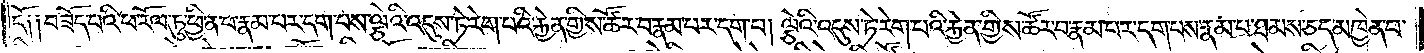དོ༑ ༑བཟོད་པའི་ཕ་རོལ་ཏུ་ཕྱིན་པ་རྣམ་པར་དག་པས་ལྕེའི་འདུས་ཏེ་རེག་པའི་རྐྱེན་གྱིས་ཚོར་བ་རྣམ་པར་དག་པ། ལྕེའི་འདུས་ཏེ་རེག་པའི་རྐྱེན་གྱིས་ཚོར་བ་རྣམ་པར་དག་པས་རྣམ་པ་ཐམས་ཅད་མཁྱེན་པ་
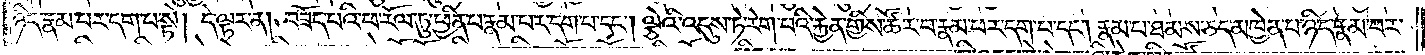ཉིད་རྣམ་པར་དག་པ་སྟེ། དེ་ལྟར་ན། བཟོད་པའི་ཕ་རོལ་ཏུ་ཕྱིན་པ་རྣམ་པར་དག་པ་དང༌། ལྕེའི་འདུས་ཏེ་རེག་པའི་རྐྱེན་གྱིས་ཚོར་བ་རྣམ་པར་དག་པ་དང༌། རྣམ་པ་ཐམས་ཅད་མཁྱེན་པ་ཉིད་རྣམ་པར་
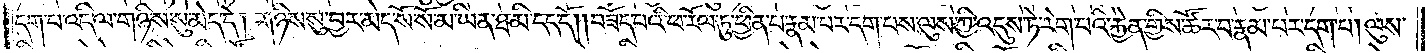དག་པ་འདི་ལ་གཉིས་སུ་མེད་དེ། གཉིས་སུ་བྱར་མེད་སོ་སོ་མ་ཡིན་ཐ་མི་དད་དོ། །བཟོད་པའི་ཕ་རོལ་ཏུ་ཕྱིན་པ་རྣམ་པར་དག་པས་ལུས་ཀྱི་འདུས་ཏེ་རེག་པའི་རྐྱེན་གྱིས་ཚོར་བ་རྣམ་པར་དག་པ། ལུས་
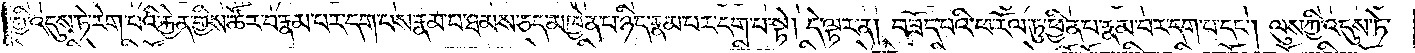ཀྱི་འདུས་ཏེ་རེག་པའི་རྐྱེན་གྱིས་ཚོར་བ་རྣམ་པར་དག་པས་རྣམ་པ་ཐམས་ཅད་མཁྱེན་པ་ཉིད་རྣམ་པར་དག་པ་སྟེ། དེ་ལྟར་ན། བཟོད་པའི་ཕ་རོལ་ཏུ་ཕྱིན་པ་རྣམ་པར་དག་པ་དང༌། ལུས་ཀྱི་འདུས་ཏེ་
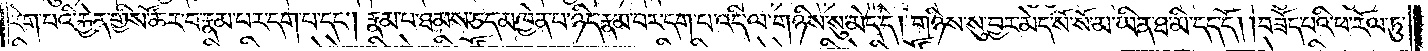རེག་པའི་རྐྱེན་གྱིས་ཚོར་བ་རྣམ་པར་དག་པ་དང༌། རྣམ་པ་ཐམས་ཅད་མཁྱེན་པ་ཉིད་རྣམ་པར་དག་པ་འདི་ལ་གཉིས་སུ་མེད་དེ། གཉིས་སུ་བྱར་མེད་སོ་སོ་མ་ཡིན་ཐ་མི་དད་དོ། །བཟོད་པའི་ཕ་རོལ་ཏུ་
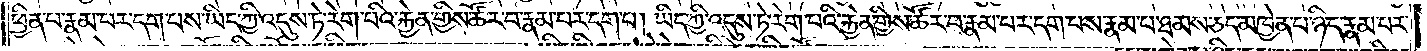ཕྱིན་པ་རྣམ་པར་དག་པས་ཡིད་ཀྱི་འདུས་ཏེ་རེག་པའི་རྐྱེན་གྱིས་ཚོར་བ་རྣམ་པར་དག་པ། ཡིད་ཀྱི་འདུས་ཏེ་རེག་པའི་རྐྱེན་གྱིས་ཚོར་བ་རྣམ་པར་དག་པས་རྣམ་པ་ཐམས་ཅད་མཁྱེན་པ་ཉིད་རྣམ་པར་
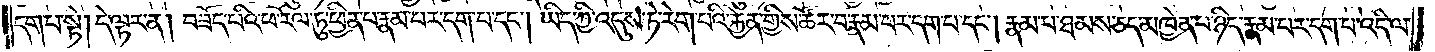དག་པ་སྟེ། དེ་ལྟར་ན། བཟོད་པའི་ཕ་རོལ་ཏུ་ཕྱིན་པ་རྣམ་པར་དག་པ་དང༌། ཡིད་ཀྱི་འདུས་ཏེ་རེག་པའི་རྐྱེན་གྱིས་ཚོར་བ་རྣམ་པར་དག་པ་དང༌། རྣམ་པ་ཐམས་ཅད་མཁྱེན་པ་ཉིད་རྣམ་པར་དག་པ་འདི་ལ་
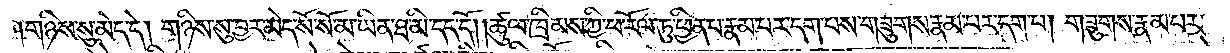གཉིས་སུ་མེད་དེ། གཉིས་སུ་བྱར་མེད་སོ་སོ་མ་ཡིན་ཐ་མི་དད་དོ། །ཚུལ་ཁྲིམས་ཀྱི་ཕ་རོལ་ཏུ་ཕྱིན་པ་རྣམ་པར་དག་པས་གཟུགས་རྣམ་པར་དག་པ། གཟུགས་རྣམ་པར་
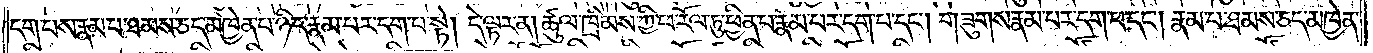དག་པས་རྣམ་པ་ཐམས་ཅད་མཁྱེན་པ་ཉིད་རྣམ་པར་དག་པ་སྟེ། དེ་ལྟར་ན། ཚུལ་ཁྲིམས་ཀྱི་ཕ་རོལ་ཏུ་ཕྱིན་པ་རྣམ་པར་དག་པ་དང༌། གཟུགས་རྣམ་པར་དག་པ་དང༌། རྣམ་པ་ཐམས་ཅད་མཁྱེན་
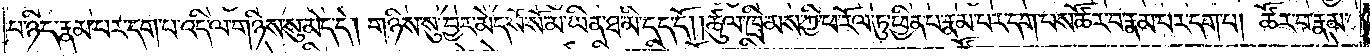པ་ཉིད་རྣམ་པར་དག་པ་འདི་ལ་གཉིས་སུ་མེད་དེ། གཉིས་སུ་བྱར་མེད་སོ་སོ་མ་ཡིན་ཐ་མི་དད་དོ། །ཚུལ་ཁྲིམས་ཀྱི་ཕ་རོལ་ཏུ་ཕྱིན་པ་རྣམ་པར་དག་པས་ཚོར་བ་རྣམ་པར་དག་པ། ཚོར་བ་རྣམ་
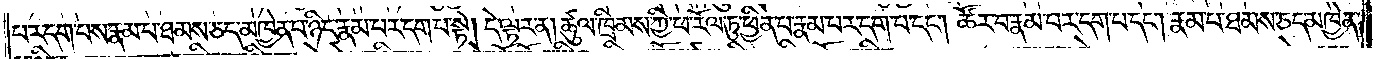པར་དག་པས་རྣམ་པ་ཐམས་ཅད་མཁྱེན་པ་ཉིད་རྣམ་པར་དག་པ་སྟེ། དེ་ལྟར་ན། ཚུལ་ཁྲིམས་ཀྱི་ཕ་རོལ་ཏུ་ཕྱིན་པ་རྣམ་པར་དག་པ་དང༌། ཚོར་བ་རྣམ་པར་དག་པ་དང༌། རྣམ་པ་ཐམས་ཅད་མཁྱེན་
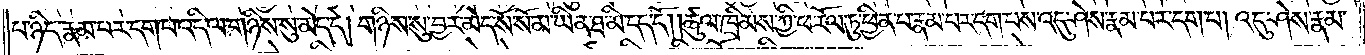པ་ཉིད་རྣམ་པར་དག་པ་འདི་ལ་གཉིས་སུ་མེད་དེ། གཉིས་སུ་བྱར་མེད་སོ་སོ་མ་ཡིན་ཐ་མི་དད་དོ། །ཚུལ་ཁྲིམས་ཀྱི་ཕ་རོལ་ཏུ་ཕྱིན་པ་རྣམ་པར་དག་པས་འདུ་ཤེས་རྣམ་པར་དག་པ། འདུ་ཤེས་རྣམ་
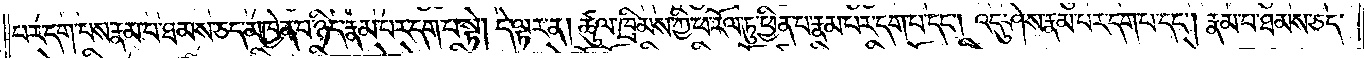པར་དག་པས་རྣམ་པ་ཐམས་ཅད་མཁྱེན་པ་ཉིད་རྣམ་པར་དག་པ་སྟེ། དེ་ལྟར་ན། ཚུལ་ཁྲིམས་ཀྱི་ཕ་རོལ་ཏུ་ཕྱིན་པ་རྣམ་པར་དག་པ་དང༌། འདུ་ཤེས་རྣམ་པར་དག་པ་དང༌། རྣམ་པ་ཐམས་ཅད་
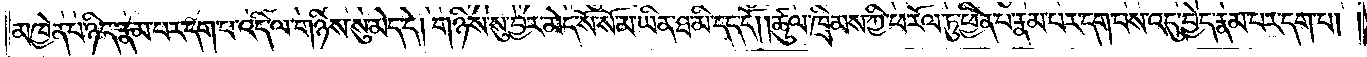མཁྱེན་པ་ཉིད་རྣམ་པར་དག་པ་འདི་ལ་གཉིས་སུ་མེད་དེ། གཉིས་སུ་བྱར་མེད་སོ་སོ་མ་ཡིན་ཐ་མི་དད་དོ། །ཚུལ་ཁྲིམས་ཀྱི་ཕ་རོལ་ཏུ་ཕྱིན་པ་རྣམ་པར་དག་པས་འདུ་བྱེད་རྣམ་པར་དག་པ།
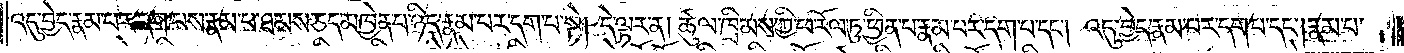འདུ་བྱེད་རྣམ་པར་དག་པས་རྣམ་པ་ཐམས་ཅད་མཁྱེན་པ་ཉིད་རྣམ་པར་དག་པ་སྟེ། དེ་ལྟར་ན། ཚུལ་ཁྲིམས་ཀྱི་ཕ་རོལ་ཏུ་ཕྱིན་པ་རྣམ་པར་དག་པ་དང༌། འདུ་བྱེད་རྣམ་པར་དག་པ་དང༌། རྣམ་པ་
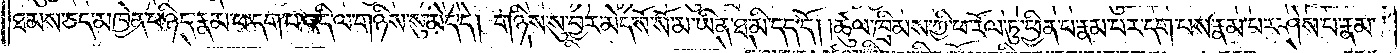ཐམས་ཅད་མཁྱེན་པ་ཉིད་རྣམ་པར་དག་པ་འདི་ལ་གཉིས་སུ་མེད་དེ། གཉིས་སུ་བྱར་མེད་སོ་སོ་མ་ཡིན་ཐ་མི་དད་དོ། །ཚུལ་ཁྲིམས་ཀྱི་ཕ་རོལ་ཏུ་ཕྱིན་པ་རྣམ་པར་དག་པས་རྣམ་པར་ཤེས་པ་རྣམ་
